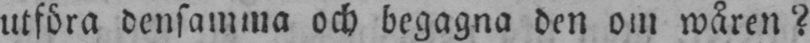utföra densamma och begagna den om wåren?
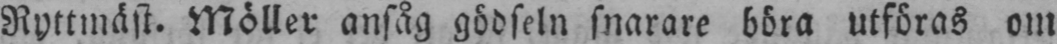Ryttmäst. Möller ansåg gödseln snarare böra utföras om
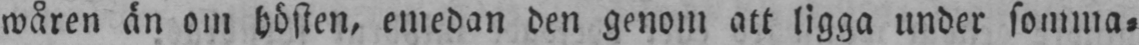wåren än om hösten, emedan den genom att ligga under somma-
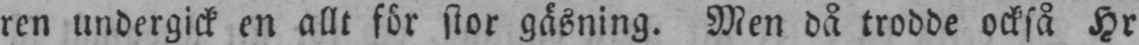ren undergick en allt för stor gäsning. Men då trodde också Hr
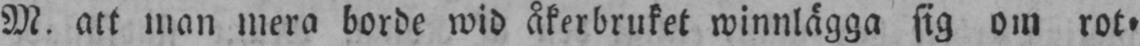M. att man mera borde wid åkerbruket winnlägga sig om rot-
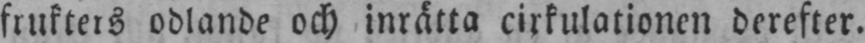frukters odlande och inrätta cirkulationen derefter.
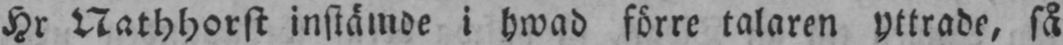Hr Nathhorst instämde i hwad förre talaren yttrade, så
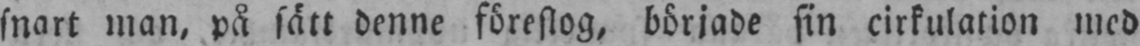snart man, på sätt denne föreslog, började sin cirkulation med
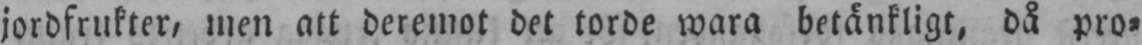jordfrukter, men att deremot det torde wara betänkligt, då pro-
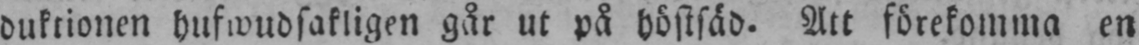duktionen hufwudsakligen går ut på höstsäd. Att förekomma en
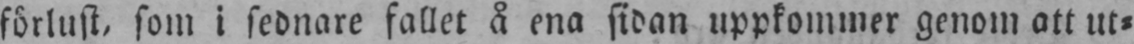förlust, som i sednare fallet å ena sidan uppkommer genom att ut-
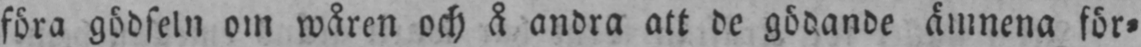föra gödseln om wåren och å andra att de gödande ämnena för-
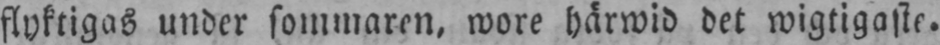flyktigas under sommaren, wore härwid det wigtigaste.
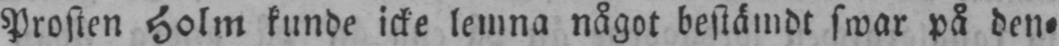Prosten Holm kunde icke lemna något bestämdt swar på den-
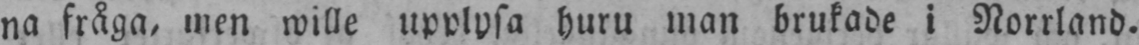na fråga, men wille upplysa huru man brukade i Norrland.
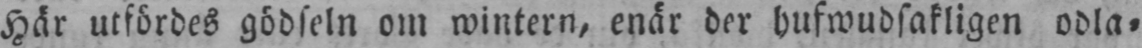Här utfördes gödseln om wintern, enär der hufwudsakligen odla-
